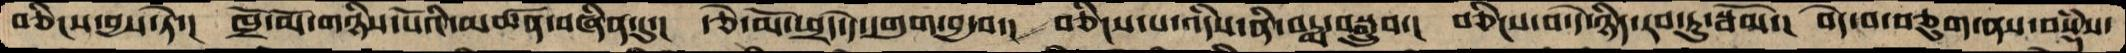བཅིངས་བྱས་ཏེ་།  ཁྲོ་མོ་གཉིས་པོའི་མཚན་བཞིན་དུ་།  རྩེ་མོ་ཕྲད་དེ་དགུག་བྱ་བ་།  བཅིངས་པ་འདིས་ནི་པདྨ་བསྒྲུབ་།  བཅིངས་པ་དེ་ཉིད་རབ་ཏུ་སྦོམ་།  བདེ་བ་བཅུག་ནས་བསྡཾས་
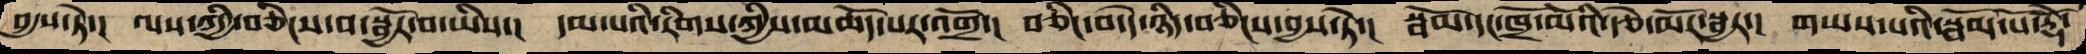བྱས་ཏེ་།  ལས་ཀྱི་བཅིངས་བ་སྦྱོར་བ་ཡིས་།  དམ་པའི་རིགས་ཀྱིས་མཆོད་པར་འགྲོ་།  བཅིང་བ་དེ་ཉིད་བཅིངས་བྱས་ཏེ་།  སྦོམ་དང་ཁྲོ་མོའི་རྩེ་མོར་སྦྱར་།  གཡས་པའི་སྦོམ་པོ་རྡོེ་
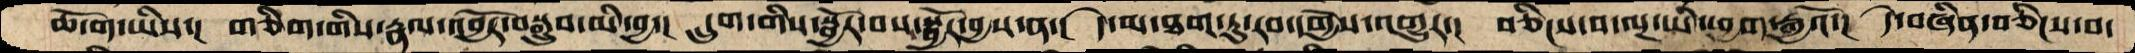ཆོ་ག་ཡིས་།  གཅིག་གིས་རྣལ་འབྱོར་བསྒྲུབ་མི་བྱ་།  དྲུག་གིས་སྦྱོར་བས་སྦྱོར་བྱས་ན་།  དེ་མ་ཐག་ཏུ་རབ་དགྱེས་འགྱུར་།  བཅིངས་པ་ལྔ་ཡི་ཕྱག་རྒྱའོ་།  དེ་བཞིན་བཅིངས་བ་
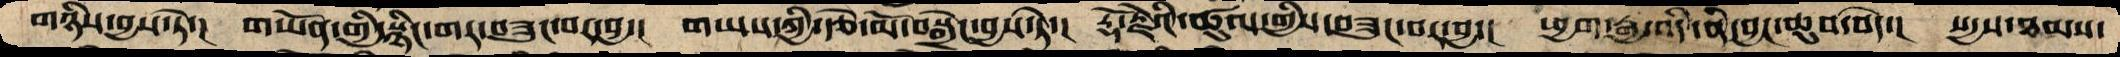གཉིས་བྱས་ཏེ་།  གཡོན་གྱི་སྙིང་གར་བཟུང་བར་བྱ་།  གཡས་ཀྱི་རྩེ་མོ་བསྒྲེང་བྱས་ཏེ་།  རྡོ་རྗེའི་ཚུལ་གྱིས་བཟུང་བར་བྱ་།  ཕྱག་རྒྱ་འདི་ནི་བྱང་ཆུབ་བདེ་།  སདྱས་ཐམས་
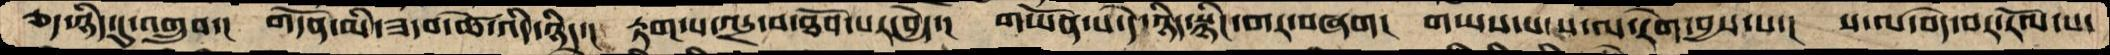ཅད་ཉིད་དུ་འགྲུབ་།  གདོན་མི་ཟ་བ་ཚེ་འདི་ཉིད་།  རྟག་པ་འདྲ་བ་ཐོབ་པར་བྱེད་།  གཡོན་པ་དེ་ཉིད་སྙིང་གར་བཞག།  གཡས་པ་ས་ལ་རེག་བྱས་པ་།  ས་ལ་བདེ་བར་རོལ་པ་
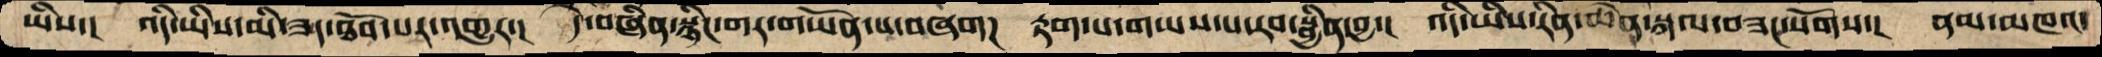ཡིས་།  འདི་ཡིས་མི་ཟད་ཐོབ་པར་འགྱུར་།  དེ་བཞིན་སྙིང་གར་གཡོན་པ་བཞག།  རྟག་པ་གཡས་པ་རབ་སྦྱིན་བྱ་།  འདི་ཡིས་རིན་ཆེན་སྐལ་བཟང་སོགས་།  ནམ་མཁའ་
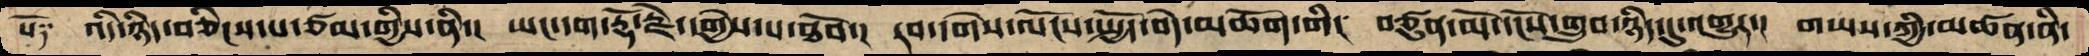སོ༑  འདི་ཉིད་བཅིངས་པ་ཙམ་གྱིས་ནི་།  ཡང་དག་རྡོ་རྗེ་དགྱེས་པ་ཐོབ་།  རབ་དགེས་ལོངས་སྤྱོད་བདེ་མཆོག་གི། བཙུན་མོ་དངོས་གྲུབ་ཉིད་དུ་འགྱུར་།  གཡས་ཀྱི་མཚན་ནི་
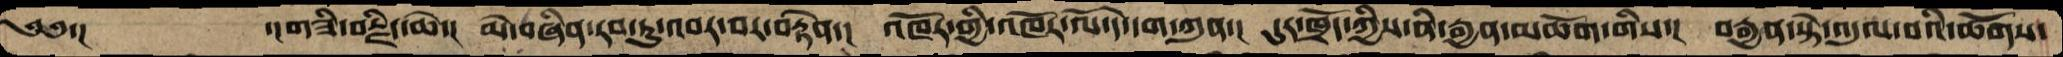༄༅་།    ་།གཟི་བརྗིད་ཆེ་།  མེ་བཞིན་རབ་ཏུ་འབར་བ་བརྟེན་།  འཁོར་གྱི་འཁོར་ལོ་དེ་དག་ཀུན་།  དུར་ཁྲོད་ཀྱིས་ནི་རྒྱན་མཆོག་གིས་།  བརྒྱན་སྟེ་འདུལ་བའི་ཚོགས་
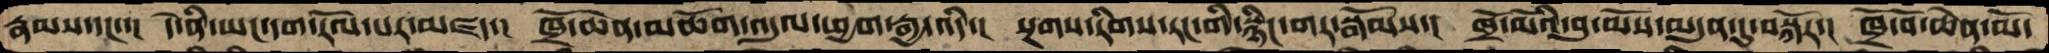རྣམས་དང་་།  དེ་ནི་ཡང་དག་རོལ་པར་མཛད་།  ཁྲོ་ཆེན་མཆོག་འདུལ་ཕྱག་རྒྱ་འདི་།  སྔགས་རིགས་རང་གི་སྙིང་གར་སྒོམས་།  ཁྲོ་མོའི་བུ་མོས་མདུན་དུ་བསྐོར་།  ཁྲོ་བོ་ཆེན་མོ་
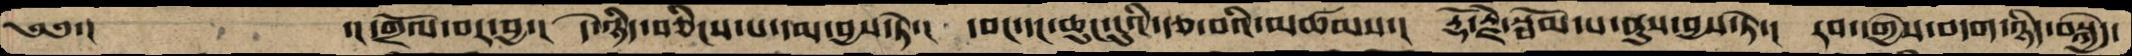༄༅་།       ་།གྲོལ་བར་བྱ་།  དེ་ཉིད་བཅིངས་པ་དམ་བྱས་ཏེ་།  དབང་དང་ཆུང་ངུའི་རྩ་བའི་མཚམས་།  རྡོ་རྗེ་སྦོམ་པ་ནུས་བྱས་ཏེ་།  རབ་དགྱེས་བདག་ཉིད་བསྐྱེད་
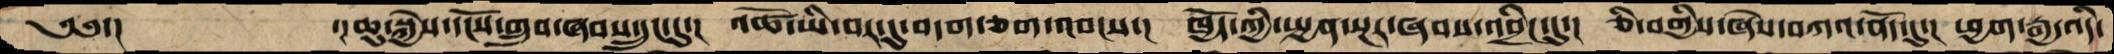༄༅་།        ་།ཆུ་སྐྱེས་དངོས་གྲུབ་ཞབས་དྲུང་དུ་།  འཚོ་ཡི་བར་དུ་བདག་ཅག་འབངས་།  ཁྱོད་ཀྱིསྤྱན་སྔར་ཞབས་འབྲིང་དུ་།  ཅི་བགྱིས་ཞེས་བཀའ་ནོད་དུ་།  ཕྱག་རྒྱ་འདི་
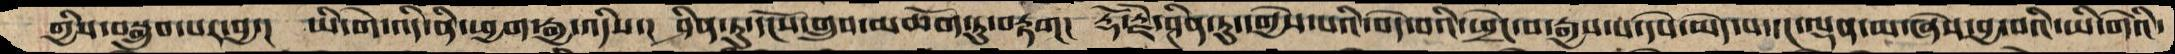གྱིས་བསྒྲུབ་པར་བྱ་།  ཡི་གེ་འདི་ནི་ཕྱག་རྒྱ་འདིས་།  ཤིན་ཏུ་དངོས་གྲུབ་མཆོག་ཏུ་བརྟག།  རྡོ་རྗེ་ཤིན་ཏུ་དགྱེས་པའི་བདེ་བའི་ཕྲེང་བ་རྒྱས་པ་དཔེ་མེད་པ་དང་ལྡན་མ་ཞེས་བྱ་བའི་ཡི་གེའི་
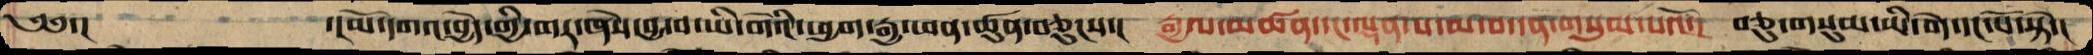༄༅་།          ་།མོ་དགའ་བྱེད་གྱི་གར་ཞེས་བྱ་བ་ཡི་གེའི་ཕྱག་རྒྱ་ཕན་ཚུན་བཅུངས་།  རྒྱལ་མཚན་དང་ལྡན་པ་མ་བ་དན་གསུམ་པའོ་།  བཅུ་གསུམ་ཡི་གེ་དང་པོ་སྟེ་།
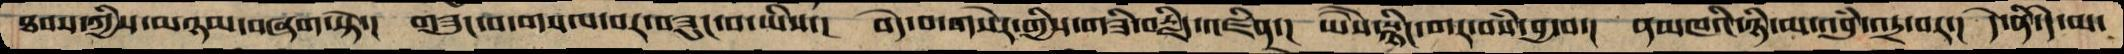ཐབས་ཀྱིས་མཉམ་བཞག་སྟེ་།  གཟུང་བ་གསལ་བར་བཟུང་བ་ཡིས་།  བདེ་བ་གསེར་གྱིས་གཟི་བརྗིད་འཛིན་།  ཡཻས་སྙིང་གར་བསཾ་བྱ་བ་།  ནམཁའི་ཉི་མ་འབུཾ་འདྲ་བར་།  དེ་ནི་དེ་མ་
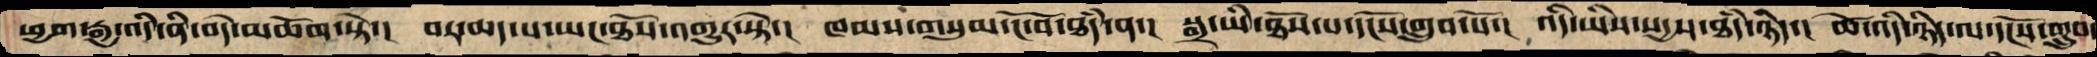ཕྱག་རྒྱ་འདི་ནི་བདེ་མཆོག་སྟེ་།  བར་ཆད་ས་ཡང་ཐོས་འགྱུར་སྟེ་།  ཁམས་གསུམ་ངོ་བོ་ཐཾད་ན་།  སྒྲ་ཡི་ཐོས་པ་དངོས་གྲུབ་པོ་།  འདི་ཡིས་སདྱས་ཐཾད་ཉིད་།  ཚེ་འདི་ཉིད་ལ་དངོས་གྲུབ་
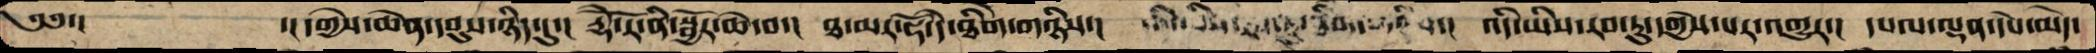༄༅་།          ་།དགྱེས་ཆེན་དབུས་ཉིད་དུ་།  རྡོེ་རོ་ནི་སྦྱོར་ཆེ་བ་།  ཐ་མར་ཧོ་དེ་ཐིགེ་གཉིས་།    འདི་ཡིས་རབ་ཏུ་དགྱེས་པར་འགྱུར་།  དཔལ་ལྡན་དཔེ་མེད་
